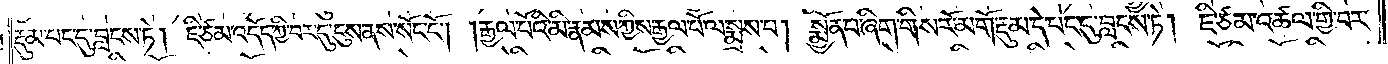རྡུམ་པང་དུ་བླངས་ཏེ། ཇི་ཙམ་འདོད་ཀྱི་བར་དུ་ངུས་ནས་སོང་ངོ༌། །རྒྱལ་པོའི་མི་རྣམས་ཀྱིས་རྒྱལ་པོ་ལ་སྨྲས་པ། སྨྱོན་པ་ཞིག་གིས་རོ་མགོ་རྡུམ་དེ་པང་དུ་བླངས་ཏེ། ཇི་ཙམ་འཚལ་གྱི་བར་
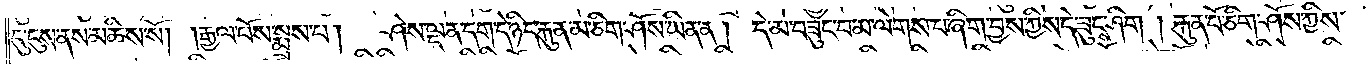དུ་ངུས་ནས་མཆིས་སོ། །རྒྱལ་པོས་སྨྲས་པ།  ཤེས་ལྡན་དག་དེ་ཉིད་རྐུན་མ་ཅིག་ཤོས་ཡིན་ན། དེ་མ་བཟུང་བ་མ་ལེགས་པ་ཞིག་བྱས་ཀྱིས་དེ་ཟུངས་ཤིག །རྐུན་པོ་ཅིག་ཤོས་ཀྱིས་
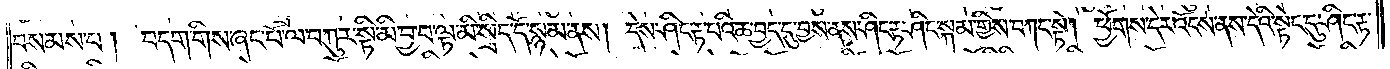བསམས་པ། བདག་གིས་ཞང་པོ་ལ་བཀུར་སྟི་མི་བྱ་བ་ལྟ་མི་སྲིད་དོ་སྙམ་ནས། དེས་ཤིང་རྟ་པའི་ཆ་བྱད་དུ་བྱས་ནས་ཤིང་རྟ་ཤིང་སྐམ་གྱིས་བཀང་སྟེ། ཕྱོགས་དེར་འོངས་ནས་དེའི་སྟེང་དུ་ཤིང་རྟ་
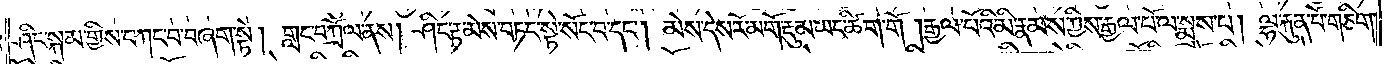ཤིང་སྐམ་གྱིས་བཀང་བ་བཞག་སྟེ། གླང་བཀྲོལ་ནས། ཤིང་རྟ་མེས་བཏང་སྟེ་སོང་བ་དང༌། མེས་དེས་རོ་མགོ་རྡུམ་ཡང་ཚིག་གོ །རྒྱལ་པོའི་མི་རྣམས་ཀྱིས་རྒྱལ་པོ་ལ་སྨྲས་པ། ལྷ་རྐུན་པོ་གཅིག་
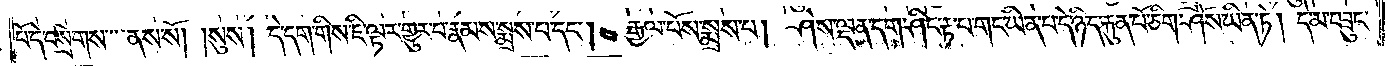པོ་དེ་བསྲེགས་ནས་སོ། །སུས། དེ་དག་གིས་ཇི་ལྟར་གྱུར་པ་རྣམས་སྨྲས་པ་དང༌།  རྒྱལ་པོས་སྨྲས་པ། ཤེས་ལྡན་དག་ཤིང་རྟ་པ་གང་ཡིན་པ་དེ་ཉིད་རྐུན་པོ་ཅིག་ཤོས་ཡིན་ཏེ། དེ་མ་བཟུང་
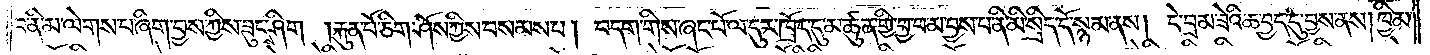བ་ནི་མ་ལེགས་པ་ཞིག་བྱས་ཀྱིས་ཟུངས་ཤིག །རྐུན་པོ་ཅིག་ཤོས་ཀྱིས་བསམས་པ། བདག་གིས་ཞང་པོ་ལ་དུར་ཁྲོད་དུ་མཚུན་གྱི་བྱ་བ་མ་བྱས་པ་ནི་མི་སྲིད་དོ་སྙམ་ནས། དེ་བྲམ་ཟེའི་ཆ་བྱད་དུ་བྱས་ནས། ཁྱིམ་
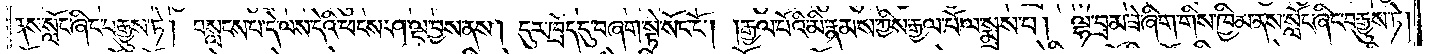ནས་སློང་ཞིང་བརྒྱུས་ཏེ། བསླངས་པ་དེ་ལས་དེའི་ཕངས་ཤ་ལྔ་བྱས་ནས། དུར་ཁྲོད་དུ་བཞག་སྟེ་སོང་ངོ༌། །རྒྱལ་པོའི་མི་རྣམས་ཀྱིས་རྒྱལ་པོ་ལ་སྨྲས་པ། ལྷ་བྲམ་ཟེ་ཞིག་གིས་ཁྱིམ་ནས་སློང་ཞིང་བརྒྱུས་ཏེ།
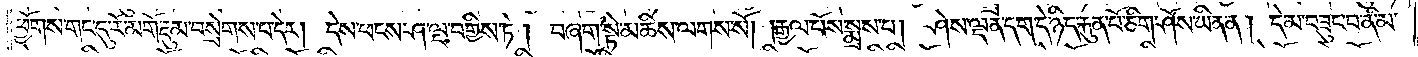ཕྱོགས་གང་དུ་རོ་མགོ་རྡུམ་བསྲེགས་པ་དེར། དེས་ཕངས་ཤ་ལྔ་བགྱིས་ཏེ། བཞག་སྟེ་མཆིས་ལགས་སོ། །རྒྱལ་པོས་སྨྲས་པ། ཤེས་ལྡན་དག་དེ་ཉིད་རྐུན་པོ་ཅིག་ཤོས་ཡིན་ན། དེ་མ་བཟུང་བ་ནི་མ་
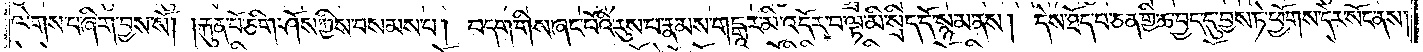ལེགས་པ་ཞིག་བྱས་སོ། །རྐུན་པོ་ཅིག་ཤོས་ཀྱིས་བསམས་པ། བདག་གིས་ཞང་པོའི་རུས་པ་རྣམས་གངྒཱར་མི་འདོར་བ་ལྟ་མི་སྲིད་དོ་སྙམ་ནས། དེས་ཐོད་པ་ཅན་གྱི་ཆ་བྱད་དུ་བྱས་ཏེ་ཕྱོགས་དེར་སོང་ནས།
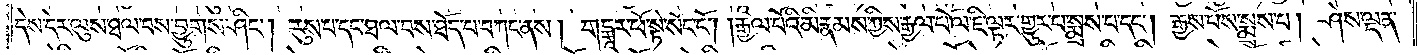དེས་དེར་ལུས་ཐལ་བས་བྱུགས་ཤིང༌། རུས་པ་དང་ཐལ་བས་ཐོད་པ་བཀང་ནས། གངྒཱར་ཕོ་སྟེ་སོང་ངོ༌། །རྒྱལ་པོའི་མི་རྣམས་ཀྱིས་རྒྱལ་པོ་ལ་ཇི་ལྟར་གྱུར་པ་སྨྲས་པ་དང༌། རྒྱས་པོས་སྨྲས་པ། ཤེས་ལྡན་
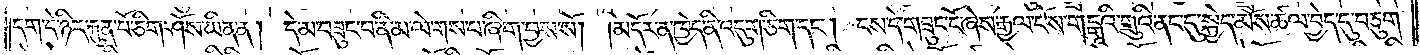དག་དེ་ཉིད་རྐུན་པོ་ཅིག་ཤོས་ཡིན་ན། དེ་མ་བཟུང་བ་ནི་མ་ལེགས་པ་ཞིག་བྱས་སོ། །མདོར་ན་ཁྱད་ནི་འདུག་ཅིག་དང༌། ངས་དེ་གཟུང་ངོ་ཞེས་རྒྱལ་པོས་གངྒཱའི་གྲུའི་ནང་དུ་སྐྱེད་མོས་ཚལ་བྱེད་དུ་བཅུག་
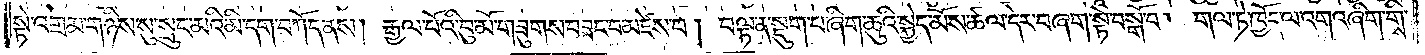སྟེ་འགྲམ་གཉིས་སུ་སྲུང་མའི་མི་དག་བཀོད་ནས། རྒྱལ་པོའི་བུ་མོ་གཟུགས་བཟང་བ་མཛེས་པ། བལྟ་ན་སྡུག་པ་ཞིག་ཆུའི་སྐྱེད་མོས་ཚལ་དེར་བཞག་སྟེ་བསྒོ་བ། གལ་ཏེ་ཁྱོད་ལ་འགའ་ཞིག་གིས་
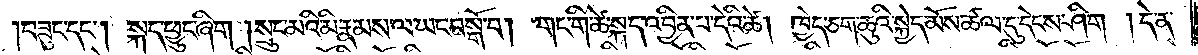བཟུང་དང༌། སྐད་ཕྱུང་ཞིག །སྲུང་མའི་མི་རྣམས་ལ་ཡང་བསྒོ་བ། གང་གི་ཚེ་སྐད་འབྱིན་པ་དེའི་ཚེ། ཁྱེད་ཅག་ཆུའི་སྐྱེད་མོས་ཚལ་དུ་དེངས་ཤིག །དེ་ན་
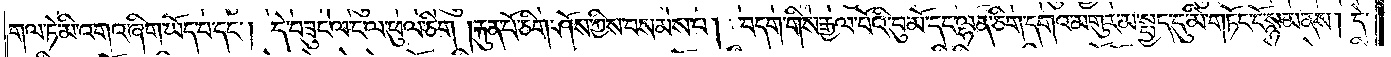གལ་ཏེ་མི་འགའ་ཞིག་ཡོད་པ་དང༌། དེ་བཟུང་ལ་ང་ལ་ཕུལ་ཅིག །རྐུན་པོ་ཅིག་ཤོས་ཀྱིས་བསམས་པ། བདག་གིས་རྒྱལ་པོའི་བུ་མོ་དང་ལྷན་ཅིག་དགའ་མགུར་མ་སྤྱད་དུ་མི་གཏོང་ངོ་སྙམ་ནས། དེ་
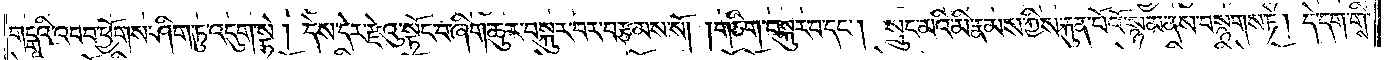གངྒཱའི་འབབ་ཕྱོགས་ཤིག་ཏུ་འདུག་སྟེ། དེས་དེར་རྫེའུ་སྟོང་བ་ཞིག་ཆུར་བསྐུར་བར་བརྩམས་སོ། །གཅིག་བསྐུར་བ་དང༌། སྲུང་མའི་མི་རྣམས་ཀྱིས་རྐུན་པོའོ་སྙམ་ནས་བསྙགས་ཏེ། དེ་དག་གིས་
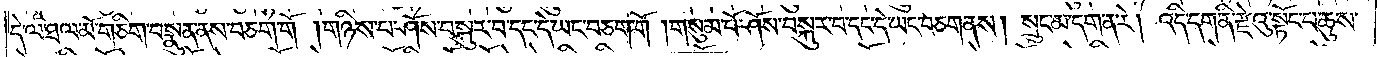དེ་ལ་ཐལ་མོ་གཅིག་བསྣུན་ནས་བཅག་གོ །གཉིས་པ་ཤོས་བསྐུར་བ་དང་དེ་ཡང་བཅག་གོ །གསུམ་པོ་ཤོས་བསྐུར་བ་དང་དེ་ཡང་བཅག་ནས། སྲུང་མ་དག་ན་རེ། འདི་དག་ནི་རྫེའུ་སྟོང་པ་ཆུས་
